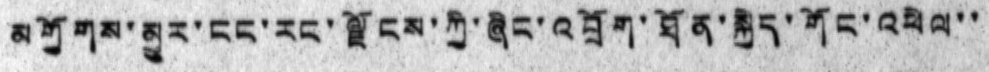མགྱོགས་མྱུར་ངང་རང་ལྗོངས་ཀྱི་ཞིང་འབྲོག་ཐོན་སྐྱེད་གོང་འཕེལ་་
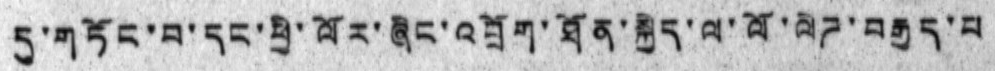དུ་གཏོང་བ་དང་ཕྱི་ལོར་ཞིང་འབྲོག་ཐོན་སྐྱེད་ལ་ལོ་ལིཌ་བརྒྱད་པ
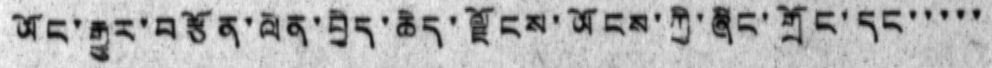ཡོང་རྒྱུར་བརྩོན་ལེན་བྱེད་ཆེད་ལྗོངས་ཡོངས་ཀྱི་ཞིང་གྲོང་དང་་་་་
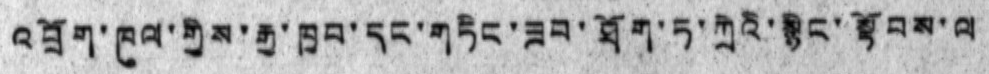འབྲོག་ཁུལ་གྱིས་རྒྱ་ཁྱབ་དང་གཏིང་ཟབ་ཐོག་ཏ་ཀྲེའི་སྙིང་སྟོབས་ལ
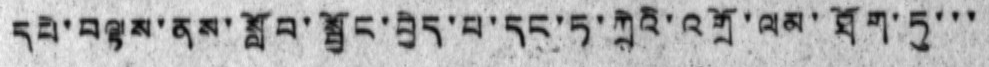དཔེ་བལྟས་ནས་སློབ་སྦྱོང་བྱེད་པ་དང་ཏ་ཀྲེའི་འགྲོ་ལམ་ཐོག་ཏུ་་་
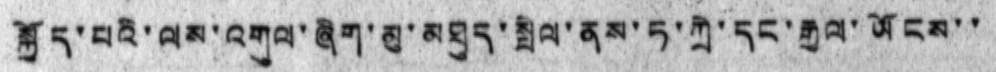སྐྱོད་པའི་ལས་འགུལ་ཞིག་མུ་མཐུད་སྤེལ་ནས་ཏ་ཀྲེ་དང་རྒྱལ་ཡོངས་་
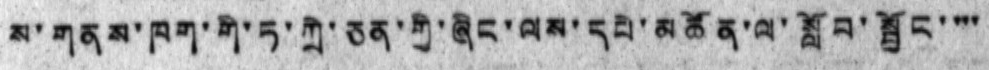ས་གནས་ཁག་གི་ཏ་ཀྲེ་ཅན་གྱི་ཞིང་ལས་དཔེ་མཚོན་ལ་སློབ་སྦྱོང་་་་
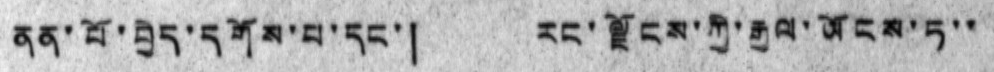ནན་པོ་བྱེད་དགོས་བ་དང་། རང་ལྗོངས་ཀྱི་རྒྱལ་ཡོངས་ཏ་་
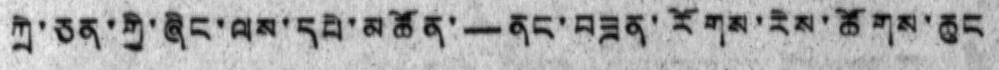ཀྲེ་ཅན་གྱི་ཞིང་ལས་དཔེ་མཚོན་—ནང་བཟན་རོགས་རེས་ཚོགས་ཆུང
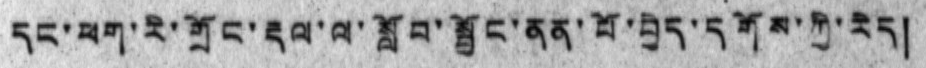དང་ཕག་རི་གྲོང་རྡལ་ལ་སློབ་སྦྱོང་ནན་པོ་བྱེད་དགོས་ཀྱི་རེད།
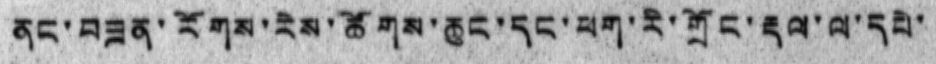ནང་བཟན་རོགས་རེས་ཚོགས་ཆུང་དང་ཕག་རི་གྲོང་རྡལ་ལ་དཔེ་
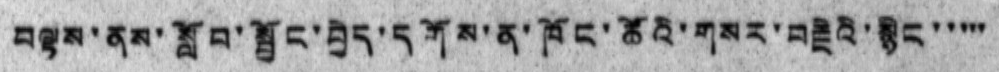བལྟས་ནས་སློབ་སྦྱོང་བྱེད་དགོས་ན་ཁོང་ཚོའི་གསར་བརྗེའི་སྙིང་་་་་
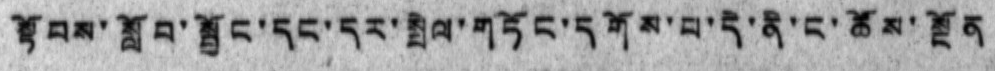སྟོབས་སློབ་སྦྱོང་དང་དར་སྤེལ་གཏོང་དགོས་པ་དེ་ནི་ང་ཚོས་སྔོན
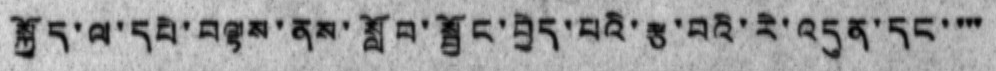སྐྱོད་ལ་དཔེ་བལྟས་ནས་སློབ་སྦྱོང་བྱེད་པའི་རྩ་བའི་རེ་འདུན་དང་་་་
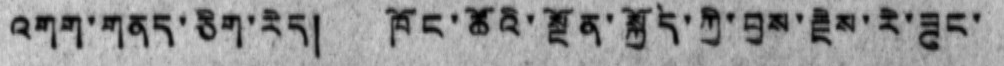འགག་གནད་ཅིག་རེད། ཁོང་ཚོའི་སྔོན་སྐྱོད་ཀྱི་བྱས་རྗེས་རེ་ཟུང་
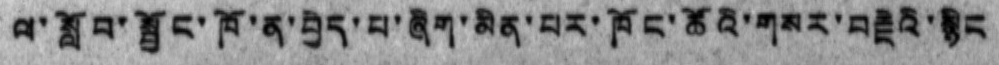ལ་སློབ་སྦྱོང་ཁོ་ན་བྱེད་པ་ཞིག་མིན་པར་ཁོང་ཚོའི་གསར་བརྗེའི་སྙིང
